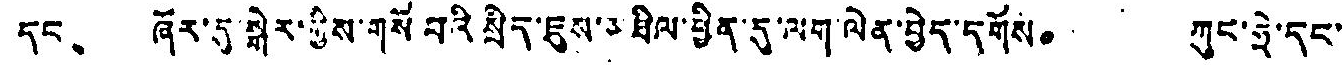དང、 ཞོར་དུ་སྒེར་གྱིས་གསོ བའི སྲིད་ཇུས་མཐིལ་ཕྱིན་དུ་ལག་ལེན་བྱེད་དགོས。 ཀུང་ཧྲེ་དང་
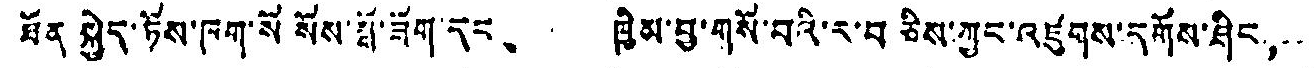ཐོན སྐྱེད་ཏོས་ཁག་སོ སོས་སྒོ་ཟོག་དང、 ཁྱིམ་བྱ་གསོ་བའི་ར་བཅིས་ཀྱང་འཛུགས་དགོས་ཤིང，
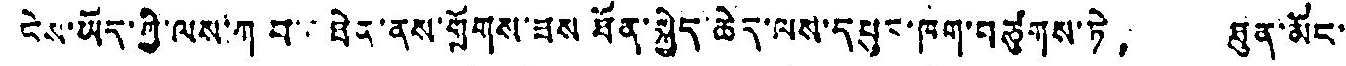ངེས་ཡོད་ཀྱི་ལས་ཀ བ་ཐེན་ནས་གྲོགས་ཟས ཐོན་སྐྱེད་ཆེད་ལས་དཔུང་ཁག་བཙུགས་ཏེ， ཐུན་མོང་
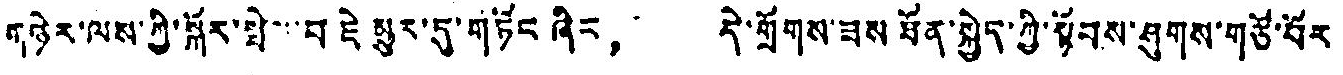གཉེར་ལས་ཀྱི་སྐོར་སྤེ་་་བཇེ མྱུར་དུ་གཏོང ཞིང， དེ་གྲོགས་ཟས ཐོན་སྐྱེད་ཀྱི་སྟོབས་ཤུགས་གཙོ་བོར་
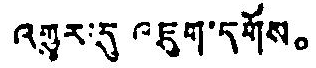འགྱུར་དུ འཇུག་དགོས。
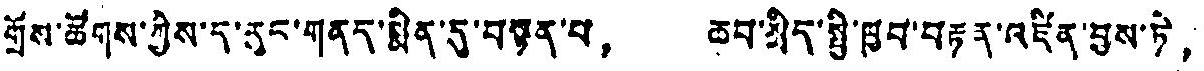གྲོས་ཚོགས་ཀྱིས་ད་རུང་གནད་སྨིན་དུ་བསྟན་པ， ཆབ་སྲིད་སྤྱི་ཁྱབ་བརྟན་འཛིན་བྱས་ཏེ，
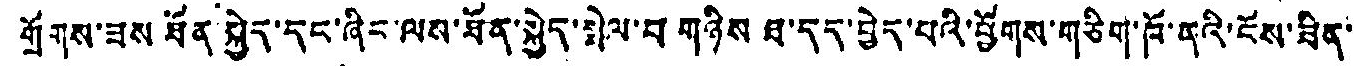གྲོགས་ཟས ཐོན་སྐྱེད་དང་ཞིང་ལས་ཐོན་སྐྱེད་སྤེལ་བ གཉིས ཐ་དད་བྱེད་པའི་ཕྱོགས་གཅིག་ཁོ་ནའི་ངོས་ཟིན་་
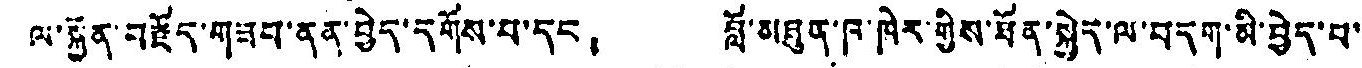ལ་སྐྱོན་བརྗོད་གཟབ་ནན་བྱེད་དགོས་པ་དང， བློ་མཐུན་ཁ་ཁེར་གྱིས་ཐོན་སྐྱེད་ལ་བདག་མི་བྱེད་པ་
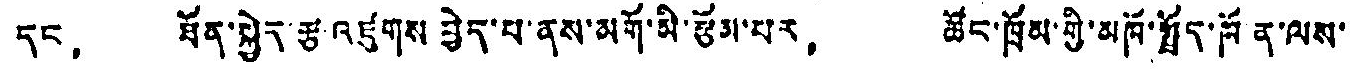དང， ཐོན་སྐྱེད་རྩ འཛུགས བྱེད་པ་ནས་མགོ་མི་རྩོམ་པར， ཚོང་ཁྲོམ་གྱི་མཁོ་སྤྲོད་ཁོན་ལས་
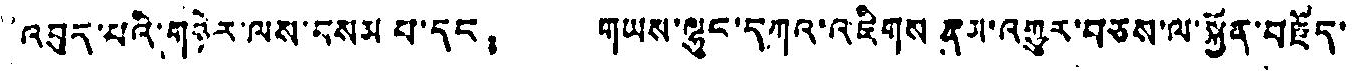འབུད་པའི་གཉེར་ལས་བསམ པ་དང， གཡས་ལྷུང་དཀའ་འཇིགས རྣམ་འགྱུར་བཅས་ལ་སྐྱོན་བརྗོད་
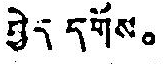བྱེད དགོས。
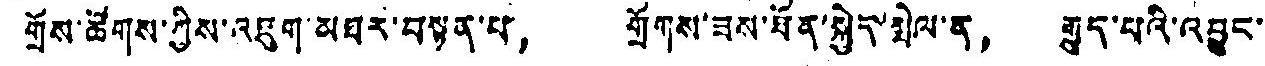གྲོས་ཚོགས་ཀྱིས་འཇུག་མཐར་བསྟན་པ， གྲོགས་ཟས་ཐོན་སྐྱེད་སྤེལ་ན， རྒྱུད་པའི་འབྱུང་
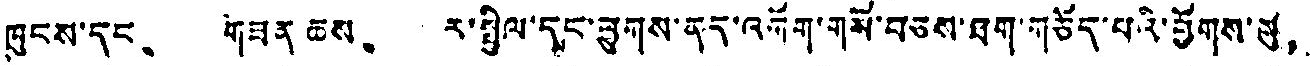ཁུངས་དང、 གཟན ཆས、 ར་སྤྱིལ་དང་ཕྱུགས་ནད་འགོག་གསོ་བཅས་ཐག་གཅོད་པའི་ཕྱོགས་སུ，
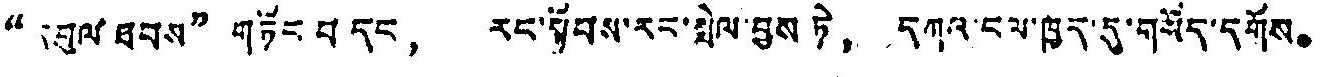“དབུལ ཐབས” གཏོང བ དང， རང་སྟོབས་རང་སྤེལ་བྱས ཏེ， དཀའ་ངལ་ཁྱད་དུ་གསོད་དགོས。
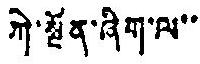ཀེ་སྔོན་ཞིག་ལ་་
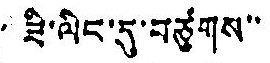ཟི་ལིང་དུ་བཙུགས་་
